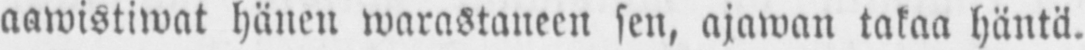aawistiwat hänen warastaneen sen, ajawan takaa häntä.
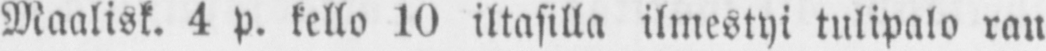Maalisk. 4 p. kello 10 iltasilla ilmestyi tulipalo rau-
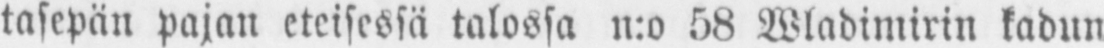tasepän pajan eteisessä talossa n:o 58 Wladimirin kadun
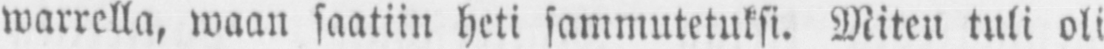warrella, waan saatiin heti sammutetuksi. Miten tuli oli
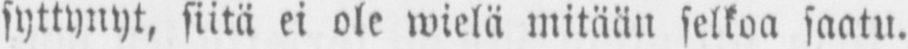syttynyt, siitä ei ole wielä mitään selkoa saatu.
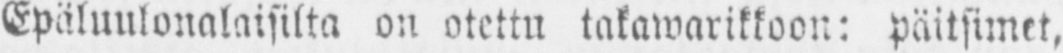Epäluulonalaisilta on otettu takawarikkoon: päitsimet,
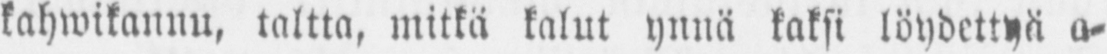kahwikannu, taltta, mitkä kalut ynnä kaksi löydettyä a-
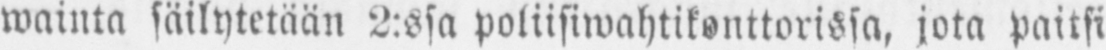wainta säilytetään 2:ssa poliisiwahtikonttorissa, jota paitsi
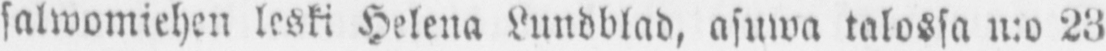salwomiehen leski Helena Lundblad, asuwa talossa n:o 23
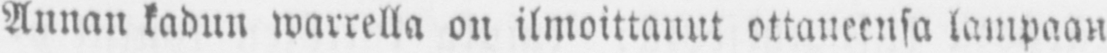Annan kadun warrella on ilmoittanut ottaneensa lampaan
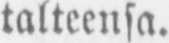talteensa.
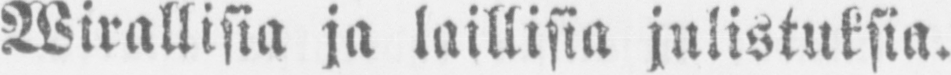Wirallisia ja laillisia julistuksia.
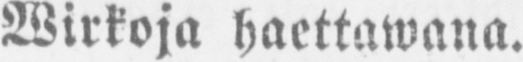Wirkoja haettawana.
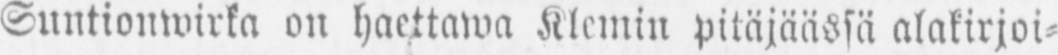Suntionwirka on haettawa Klemin pitäjäässä alakirjoi-
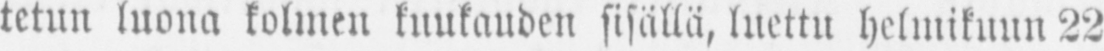tetun luona kolmen kuukauden sisällä, luettu helmikuun 22
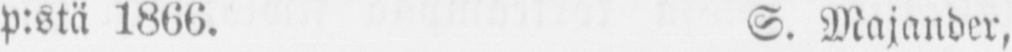p:stä 1866. S. Majander,
